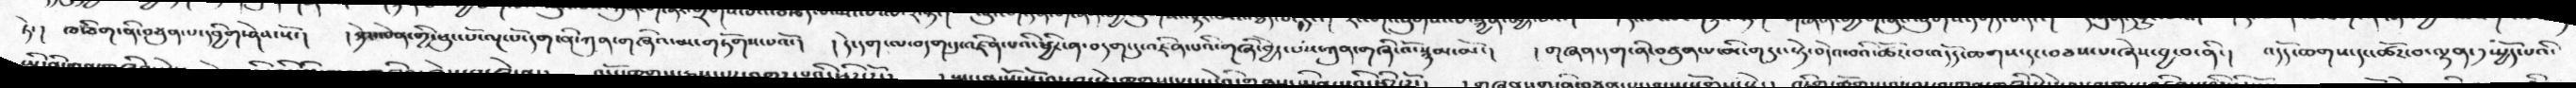ཏེ་།  ཁ་ཅིག་ནི་བཙུན་པ་དབྱིག་ཤེས་སོ་།   །ཉེར་ལེན་གྱི་ཕུང་པོ་ལྔ་པོ་དག་ནི་ཀུན་གཞིའ་མ་གཏོགས་པའོ་།  །དེ་དག་ལ་བདག་དུ་འཛིན་པའི་ཕྱིར་ན་བདག་དུ་འཛིན་པའི་གཞི་བྱེད་པས་ཀུན་གཞི་འོ་སྙམ་མོ་།   །གཞན་དག་ནི་བཙུན་པ་མི་གདུང་སྟེ་བདེའ་བའི་ཚོར་བ་འདོད་ཆགས་དང་བཅས་པ་ཞེས་བྱ་བ་ནི་།   འདོད་ཆགས་དང་ཚོར་བ་ལྷན་༡་སྤྱོད་པའི་
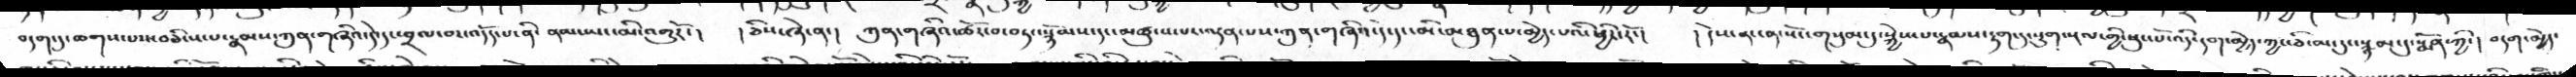བདག་དུ་ཆགས་པས་བཅིངས་པ་རྣམས་ཀུན་གཞིའ་དེ་དང་བྲལ་བར་འདོད་པ་ནི་ ནམ་ཡང་མི་འགྱུརོ་།   །ཅིས་ཞེ་ན་།  ཀུན་གཞིའ་ཚོར་བ་བཏང་སྙོམས་དང་མཚུངས་པར་ལྡན་པས་ཀུན་གཞིའ་དེ་དང་མི་མཐུན་པ་མྱེད་པའི་ཕྱིར་རོ་།   །དེས་ན་ངན་སོང་གསུམ་དུ་སྐྱེས་པ་རྣམས་རྟག་དུ་སྡུག་བསྔལ་གྱི་ཕུང་པོ་འདི་དག་མྱེད་ཀྱང་ཅི་མང་དུ་སྙམ་དུ་སྨོན་ཀྱི་།  བདག་མྱེད་
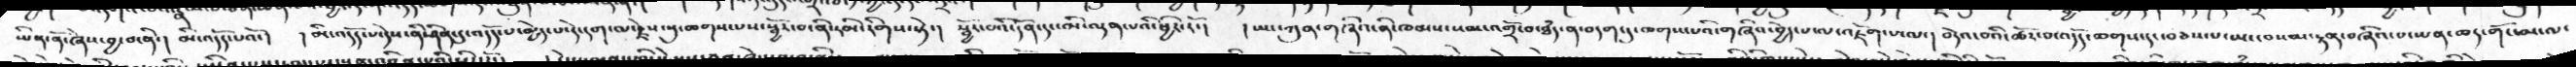ཡིན་ནོ་ཞེས་བྱ་བ་ནི་།  མི་འདོད་པའོ་། །མི་འདོད་པ་དེས་ནི་ཤིན་དུ་འདོད་པ་མྱེད་པ་དེ་དག་ལ་རྗེས་སུ་ཆགས་པས་སྦྱོར་བ་ནི་རིམ་རིགས་སྟེ་།   སྦྱོར་བའི་དོན་དང་མི་ལྡན་པའི་ཕྱིར་རོ་།   །ཡང་ཀུན་གཞིའ་ནི་ཁམས་སམ་འགྲོ་བ་ཐཾད་ན་བདག་དུ་ཆགས་པའི་གཞིའ་བྱེད་པ་ལ་འཇོག་པ་ལ་།  བདེའ་བའི་ཚོར་བ་འདོད་ཆགས་དང་བཅས་པ་ཡང་བསམ་སྟན་བཞིའ་པ་ཡན་ཆད་གོང་མ་ལ་
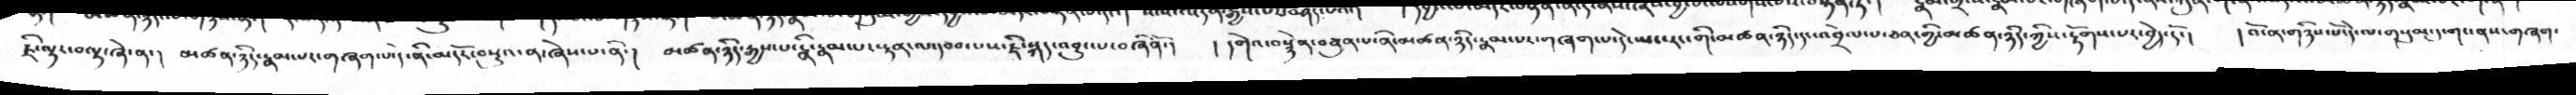ཇི་ལྟར་བལྟ་ཞེ་ན་།   མཚན་ཉིད་རྣམ་པར་གཞག་པ་དེ་ནི་མདོར་བསྡུའ་ན་ཞེས་པ་ནི་།  མཚན་ཉིད་རྒྱས་པ་ནི་རྣམ་པར་རྟན་ལ་དབབ་པས་ཇི་སྐད་འབྱུང་པ་བཞིནོ་།   ། དགེའ་བསྙེན་བཙུན་པ་ནི་མཚན་ཉིད་རྣམ་པར་གཞག་པ་དེ་ཡང་རང་གི་མཚན་ཉིད་དང་འབྲེལ་པ་ཅན་གྱི་མཚན་ཉིད་ཀྱིས་རྟོགས་པར་བྱེད་དོ་།   ། འོ་ན་གཉིས་པོ་དེ་ལ་གསུམ་དུ་གང་ནས་གཞག་
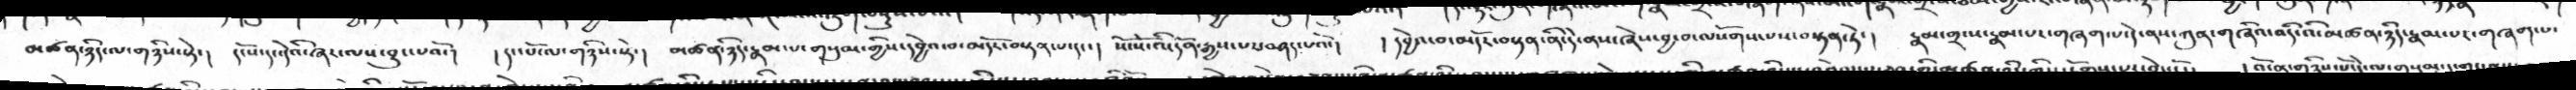མཚན་ཉིད་ལ་གཉིས་སྟེ་།   དངོས་དང་དེའི་ཞར་ལས་བྱུང་པའོ་།   །དང་པོ་ལ་གཉིས་སྟེ་།   མཚན་ཉིད་རྣམ་པ་གསུམ་གྱིས་དབྱེའ་བ་མདོར་བསྟན་པ་དང་།  སོ་སོ་འི་དོན་རྒྱས་པས་བཤད་པའོ་།    །དབྱེའ་བ་མདོར་བསྟན་ནི་དེ་ནས་ཞེས་བྱ་བ་ལསོགས་པས་བསྟན་ཏེ་།  རྣམ་གྲངས་རྣམ་པར་གཞག་པ་དེ་ནས་ཀུན་གཞིའ་འདི་འི་མཚན་ཉིད་རྣམ་པར་གཞག་པ་
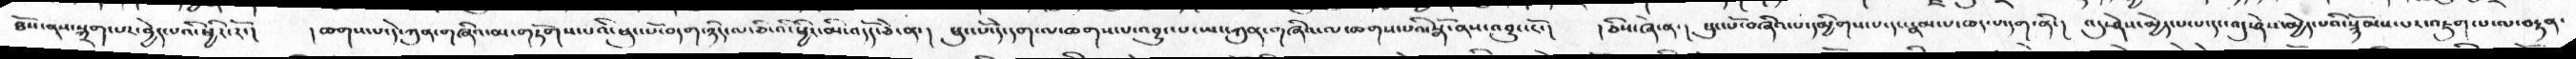ཐོས་ནས་སྐྲག་པར་བྱེད་པའི་ཕྱིར་རོ་།    །ཆགས་པ་དེ་ཀུན་གཞིའ་མ་གཏོགས་པའི་ཕུང་པོ་བདག་ཉིད་ལ་ཅི་འི་ཕྱིར་འདོད་ཅེ་ན་།  ཕུང་པོ་དེ་དག་ལ་ཆགས་པ་འབྱུང་པ་ཡང་ཀུན་གཞིའ་ལ་ཆགས་པའི་སྒོ་ནས་འབྱུང་ངོ་།  །ཅིས་ཞེ་ན་།  ཕུང་པོ་བཞིའ་པ་དམྱིགས་པ་དང་རྣམ་པ་ཆད་པ་དག་ནི་།  འདུ་ཤེས་མྱེད་པ་པ་དང་འདུ་ཤེས་མྱེད་པའི་སྙོམས་པར་འཇུག་པ་ལ་བརྟན་
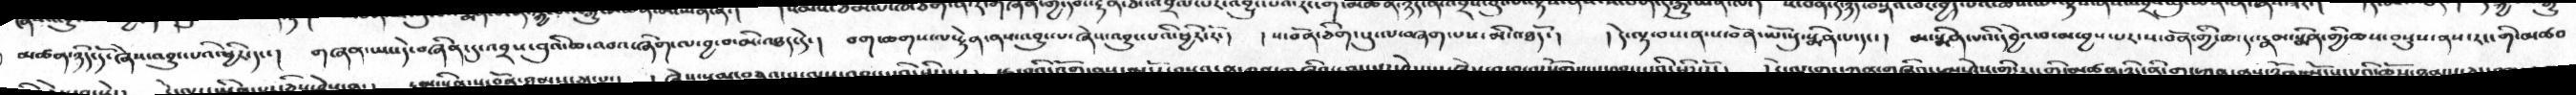མཚན་ཉིད་དོ་ཞེས་འབྱུང་པའི་ཕྱིར་དང་།  གཞན་ཡང་དེ་བཞིན་དུ་འབྲས་བུའི་ཆ་འབའ་ཞིག་ལ་བྱ་བ་མི་འཐད་དེ་།  བག་ཆགས་ལ་རྟེན་ནས་འབྱུང་པ་ཞེས་འབྱུང་པའི་ཕྱིར་རོ་།  །ས་བོན་ཅིག་པུ་ལ་བཞག་པས་མི་འཐདོ་།  །དེ་ལྟ་བས་ན་ས་བོན་ཡོངསུ་སྨིན་པ་དང་།  མ་སྨིན་པའི་དབྱེའ་བ་མ་བྱས་པར་ས་བོན་གྱི་ཆ་དང་རྣམསྨིན་གྱི་ཆས་བསྡུས་ནས་རང་གི་མཚབ་
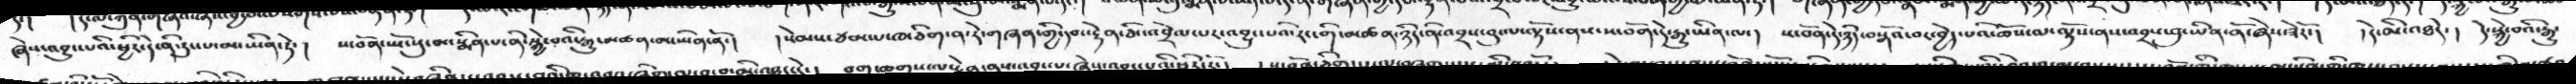ཞེས་འབྱུང་པའི་ཕྱིར་དེ་ནི་རུང་པ་མ་ཡིན་ཏེ་།   ས་བོན་ཡོངསུ་མ་སྨིན་པ་ནི་སྐྱེ་བའི་རྒྱུ་མཚན་མ་ཡིན་ནོ་།  །སེམས་ཙམ་པ་ཁ་ཅིག་ན་རེ་གཞན་གྱི་དབང་རྟེན་ཅིང་འབྲེལ་པར་འབྱུང་པའི་རང་གི་མཚན་ཉིད་ནི་འབྲས་བུ་ལ་ལྟོས་ནས་ས་བོན་དེ་རྒྱུ་ཡིན་ལ་།  ས་བོན་དེ་ཉིད་བསྒོའ་བར་བྱེད་པའི་ཆོས་ལ་ལྟོས་ནས་འབྲས་བུ་ཡིན་ནོ་ཞེས་ཟེརོ་།  །དེར་མི་འཐདེ་།  དེ་སྐྱེ་བའི་རྒྱུ་
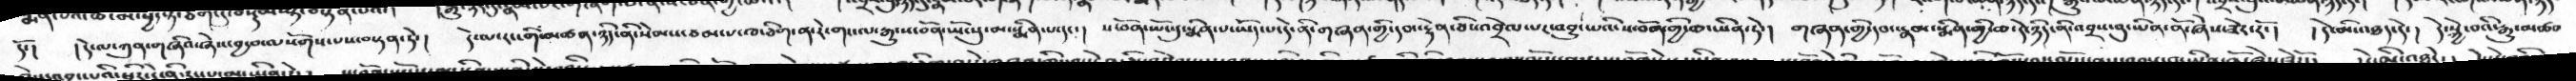དོ་།  །དེ་ལ་ཀུན་གཞིའ་ཞེས་བྱ་བ་ལསོགས་པས་བསྟན་ཏེ་།  དེ་ལ་རང་གི་མཚན་ཉིད་ནི་སེམས་ཙམ་པ་ཁ་ཅིག་ན་རེ་གང་ལ་རྒྱུ་ས་བོན་ཡོངསུ་མ་སྨིན་པ་དང་།  ས་བོན་ཡོངསུ་སྨིན་པ་ཡོད་པ་དེ་ནི་གཞན་གྱི་དབང་རྟེན་ཅིང་འབྲེལ་པར་འབྱུང་པའི་ས་བོན་གྱི་ཆ་ཡིན་ཏེ་།  གཞན་གྱི་དབང་རྣམ་སྨིན་གྱི་ཆ་དེ་ཉིད་ནི་འབྲས་བུ་ཡིན་ནོ་ཞེས་ཟེར་རོ་།  །དེ་མི་འཐད་དེ་།  དེ་སྐྱེ་བའི་རྒྱུ་མཚན
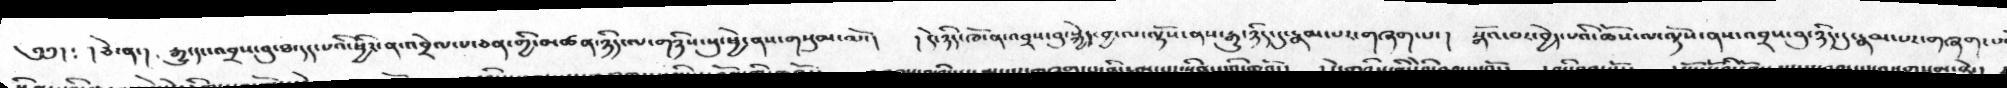༄༅།  ༴  །ཅེ་ན་།   རྒྱུ་དང་འབྲས་བུ་ཐ་དད་པའི་ཕྱིར་ན་འབྲེལ་པ་ཅན་གྱི་མཚན་ཉིད་ལ་གཉིས་སུ་ཕྱེ་ནས་གསུམ་མོ་།   །དེ་ཉིད་ཁོ་ན་འབྲས་བུ་སྐྱེད་བྱ་ལ་ལྟོས་ནས་རྒྱུ་ཉིད་དུ་རྣམ་པར་གཞག་པ་།   སྒོའ་བར་བྱེད་པའི་ཆོས་ལ་ལྟོས་ནས་འབྲས་བུ་ཉིད་དུ་རྣམ་པར་གཞག་པ
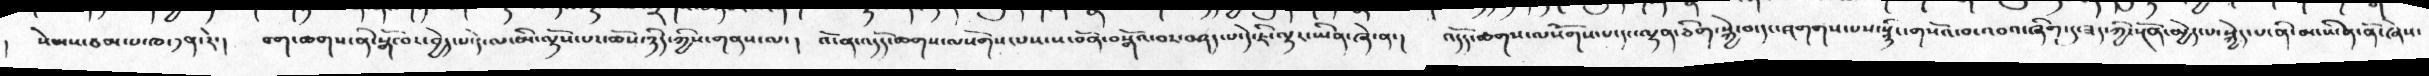།  སེམས་ཙམ་པ་ཁ་༡ན་དེ་།  བག་ཆགས་ནི་སྒོ་བར་བྱེད་པ་དེ་ལ་མི་ལྟོས་པ་ཆོས་ཉིད་ཀྱིས་གནས་ལ་།  འོ་ན་འདོད་ཆགས་ལསོགས་པས་ས་བོན་བསྒོའ་བར་བཤད་པ་དེ་ཇི་ལྟར་ཡིན་ཞེ་ན་།  འདོད་ཆགས་ལསོགས་པ་དང་ལྷན་ཅིག་སྐྱེ་བ་དང་འགགག་པས་སྙིང་གསོའ་བ་འབའ་ཞིག་དུ་ཟད་ཀྱི་སྔོན་མྱེད་པ་སྐྱེད་པ་ནི་མ་ཡིན་ནོ་ཞེས་
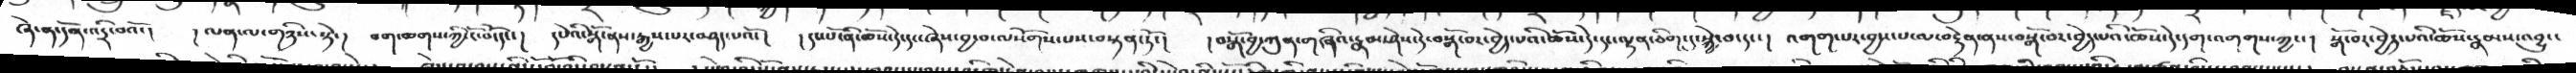ཞེ་ན་དོན་འདྲི་བའོ་།    །ལན་ལ་གཉིས་སྟེ་།   བག་ཆགས་ཀྱི་ངོ་བོ་དང་།  དཔེའི་སྒོ་ནས་རྒྱས་པར་བཤད་པའོ་།  །དང་པོ་ནི་ཆོས་དེ་དང་ཞེས་བྱ་བ་ལསོགས་པས་བསྟན་ཏོ་།  །བསྒོ་བྱ་ཀུན་གཞིའ་རྣམ་ཤེས་དེ་བསྒོ་བར་བྱེད་པའི་ཆོས་དེ་དང་ལྷན་ཅིག་དུ་སྐྱེ་བ་དང་།   འགག་པར་བྱས་པ་ལ་བརྟེན་ནས་བསྒོ་བར་བྱེད་པའི་ཆོས་དེ་དག་འགགས་ཀྱང་།   སྒོ་བར་བྱེད་ཆོས་རྣམས་འབྱུང་
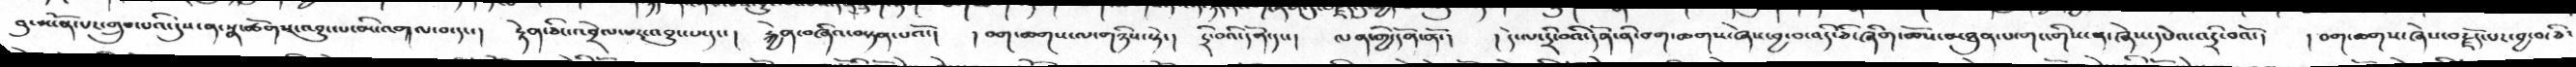བུ་མངོན་པར་གྲུབ་པའི་དུས་ན་སྣ་ཚོགས་འབྱུང་པ་མི་འགལ་བ་དང་།   རྟེན་ཅིང་འབྲེལ་པར་འབྱུང་པ་དང་།  རྐྱེན་བཞིའ་བསྟན་པའོ་།   །བག་ཆགས་ལ་གཉིས་སྟེ་།   དྲི་བའི་དོན་དང་།  ལན་གྱི་དོན་ནོ་།   །དེ་ལ་དྲི་བའི་དོན་ནི་བག་ཆགས་ཞེས་བྱ་བ་འདི་ཅི་ཞིག་ཆོས་མཐུན་པ་གང་གིས་ན་ཞེས་དཔེའ་འདྲི་བའོ་།    །བག་ཆགས་ཞེས་བརྗོད་པར་བྱ་བ་ཅི་
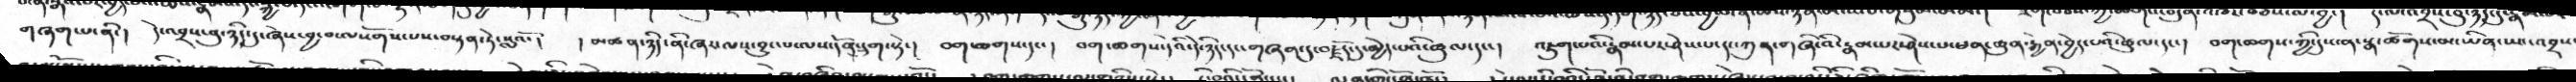གཞག་པ་ནི་།   དེ་འབྲས་བུ་ཉིད་དུ་ཞེས་བྱ་བ་ལསོགས་པས་བསྟན་ཏེ་སླའོ་།    །མཚན་ཉིད་ནི་ཞར་ལས་བྱུང་པ་ལས་དོན་དྲུག་སྟེ་།   བག་ཆགས་དང་།   བག་ཆགས་དེའི་དེ་ཉིད་དང་གཞན་དུ་བརྗོད་དུ་མྱེད་པའི་ཚུལ་དང་།   འཇུག་པའི་རྣམ་པར་ཤེས་པ་དང་ཀུན་གཞི་འི་རྣམ་པར་ཤེས་པ་ཕན་ཚུན་རྐྱེན་བྱེད་པའི་ཚུལ་དང་།   བག་ཆགས་ཀྱི་དུས་ན་སྣ་ཚོགས་མ་ཡིན་ཡང་འབྲས
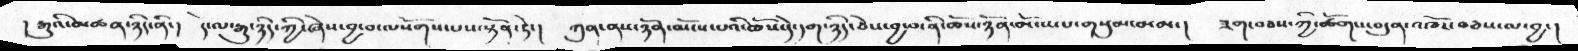། རྒྱུའི་མཚན་ཉིད་ནི་།  དེ་ལ་རྒྱུ་ཉིད་ཀྱི་ཞེས་བྱ་བ་ལསོགས་པས་སྟོན་ཏེ་།  ཀུན་ནས་ཉོན་མོངས་པའི་ཆོས་དེ་དག་ཉིད་ཅེས་བྱ་བ་ནི་ཆོས་ཉོན་མོངས་པ་གསུམ་མམ་།  ཟག་བཅས་ཀྱི་ཚོགས་བདུན་འཁོར་བཅས་ལ་བྱ་།
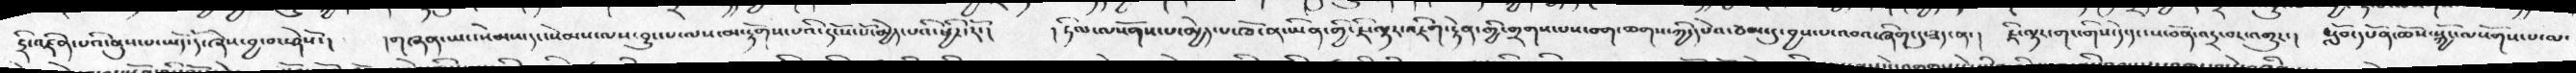དྲི་འཛིན་པའི་ནུས་པ་ཡོད་དོ་ཞེས་བྱ་བ་ཤེསོ་།   །གཞན་ཡང་སེམས་དང་སེམས་ལས་བྱུང་པ་ལས་མ་རྟོགས་པའི་དངོས་པོ་མྱེད་པའི་ཕྱིར་རོ་།   །ཏིལ་ལསོགས་པ་མྱེད་པ་ཁོ་ན་ཡིན་གྱི་ཇི་ལྟར་འཇིག་རྟེན་གྱི་གྲགས་པས་བག་ཆགས་ཀྱི་དཔེའ་ཙམ་དུ་བྱས་པ་འབའ་ཞིག་དུ་ཟད་ན་།   ཇི་ལྟར་གང་གིས་དེ་དང་ས་བོན་འདྲ་བར་འགྱུར་།   སློབ་དཔོན་ཆོས་སྐྱོང་ལསོགས་པ་མ་
